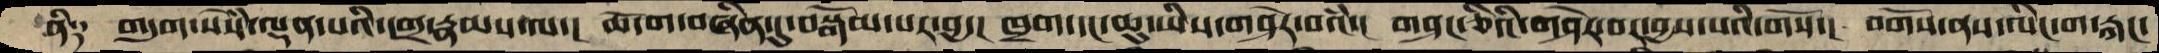ནི༑   གདུག་སེཾས་ལྡན་པའི་དགྲ་རྣམས་ལ་།  ཆོ་ག་བཞིན་དུ་བསྒོམ་པར་བྱ་།  ཁྲག་དང་ཆུ་ཡིས་གཤེར་བའཾ་།  གཤང་ཅིའི་གཤེར་བར་བྱས་པའི་གོས་།  བགོས་ནས་ལིང་ག་རྐང་
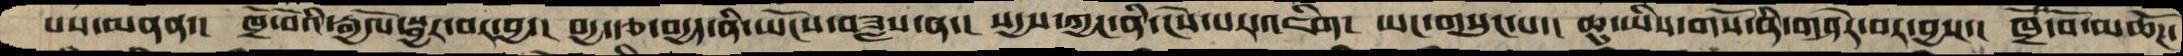པས་མནན་།  ཁྲོ་བོའི་རྒྱལོ་སྦྱར་བར་བྱ་།  བདྱ་རྩ་བདྱད་ནི་ཡོངས་བཟླས་ན་།  སདྱས་ཀྱང་ནི་ངེས་པར་འཇིག།  ཡང་གསུང་པ་།  ཆུ་ཡིས་གསོ་ནི་གཤེར་བར་བྱས་།  ཁྲོ་བོ་མཆོཌ་
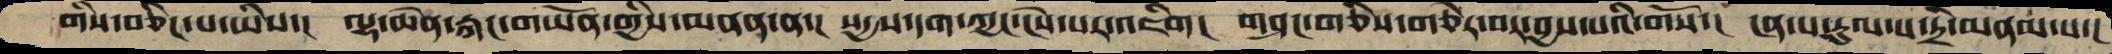གིས་བཅིང་པ་ཡིས་།  ལྷ་ཆེན་རྐང་གཡོན་གྱིས་མནན་ན་།  སདྱས་དག་ཀྱང་ངེས་པར་འཇིག།  གཤང་གཅིས་གཅེར་བར་བྱས་པའི་གོས་།  ངན་པ་རུལ་པ་དྲི་མནམ་པ་།
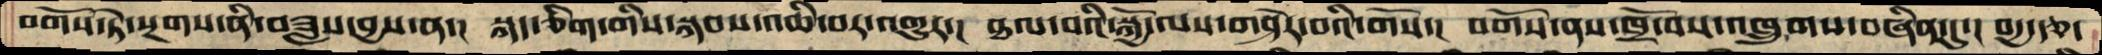བགོས་ཏེ་སྔགས་ནི་བཟླས་བྱས་ན་།  སྐད་ཅིག་གིས་སྐབས་འཆི་བར་འགྱུར་།  ཐལ་བའི་སྐྱོ་ལས་གཤེར་བའི་གོས་།  བགོས་ནས་ཁྲོ་བས་འཁྲུགས་བཞིན་དུ་།  བདྱ་རྩ་
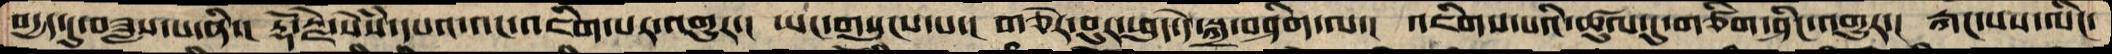བདྱད་དུ་བཟླས་པ་ནི་།  རྡོ་རྗེ་སེཾས་དཔའ་འང་འཇིག་པར་འགྱུར་།  ཡང་གསུངས་པ་།  གཅེར་བུར་ཕུད་དེ་སྐྲ་བཤིག་ལ་།  འཇིག་པའི་ཚུལ་དུ་གཙིག་ཤིང་འགྱུར་།  རྐང་པས་ལིང་
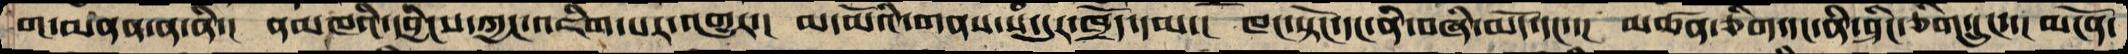ག་མནན་ན་ནི་།  ནམཁའི་དབྱིངས་ཀྱང་འཇིག་པར་འགྱུར་།  མ་མོའི་གནས་སཾ་དུར་ཁྲོད་དམ་།  ཁང་སྟོང་དང་ནི་བཞི་མདོ་དང་་།  མཚན་ཅིག་དང་ནི་ཤིང་ཅིག་དྲུང་་།  མངོན་
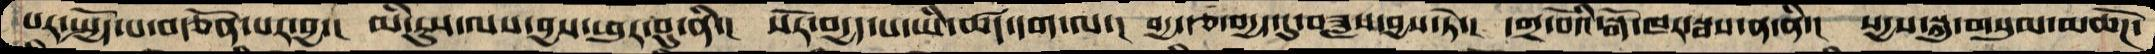པར་སྤྱོད་པ་བརྩོན་པར་བྱ་།  མི་རུས་ལས་བྱས་ཕུར་བུ་ནི་།  སོར་བདྱད་པ་ནི་ཚད་དག་ལ་།  བདྱ་རྩ་བདྱད་དུ་བཟླས་བྱས་ཏེ་།  དགྲ་བོའི་སྒོ་ཁར་སྦས་ན་ནི་།  སདྱས་སྐུ་གསུམ་མཆོཌ་
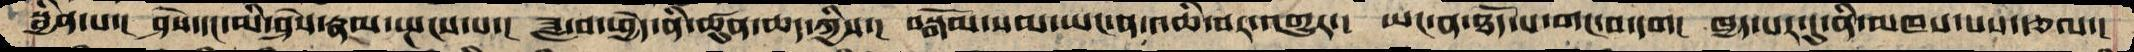སྦྱིན་པ་།  ཤེས་དང་མི་ཤེས་རྣམ་སྤངས་པ་།  ཟླ་བ་ཕྱེད་ནི་ཚུན་ཆད་ཀྱིས་།  བསྒོམ་སམ་ཡང་ན་འཆི་བར་འགྱུར་།  ཡང་ན་ཐོད་པ་གང་བ་དག།   ཁྱད་པར་དུ་ནི་མཁས་པས་རྩལ་།
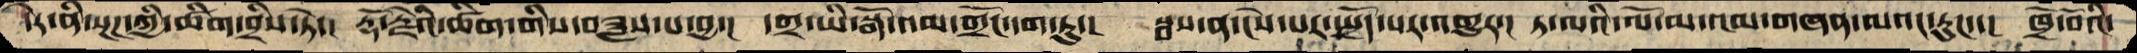དེར་ནི་སྔཌ་ཀྱི་ཚིག་བྲིས་ཏེ་།  རྡོ་རྗེའི་ཚིག་གིས་བཟླས་པ་བྱ་།  དགྲ་ཡི་སྒོ་འམ་གྲོང་དག་ཏུ་།  སྦས་ན་ངེས་པར་སྤྲོད་པར་འགྱུར་།  ཏ་ལའི་ལོ་མ་འམ་གཞན་ལའང་རུང་་།  ཁྲོ་བོའི་
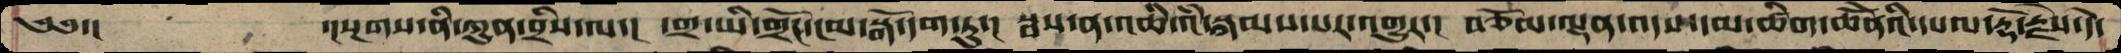༄༅་།   ་།སྔགས་ནི་ཀུན་བྲིས་ལ་།  དགྲ་ཡི་གྲོང་ངམ་སྒོ་དག་ཏུ་།  སྦས་ན་འཆི་འཾ་སྐམས་པར་འགྱུར་།  བཅོམ་ལྡན་འདས་དམ་ཚིག་ཆེནོའི་དཔལ་རྡོ་རྗེས་དེ་
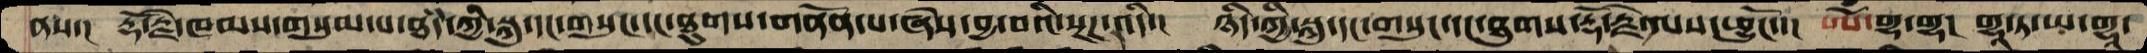ནས་།  རྡོ་རྗེ་ཁམས་གསུམ་པ་ཐཾད་ཀྱི་སྐུ་དང་གསུང་དང་ཐུགས་གནོན་པ་ཞེས་བྱ་བའི་སྔཌ་འདི་།  ཉིད་ཀྱི་སྐུ་དང་གསུང་དང་ཐུགས་རྡོ་རྗེ་ལས་ཕྱུངོ་་།  ཨོཾ་གྷ་གྷ།  གྷཱ་ཏ་ཡ་གྷཱ་
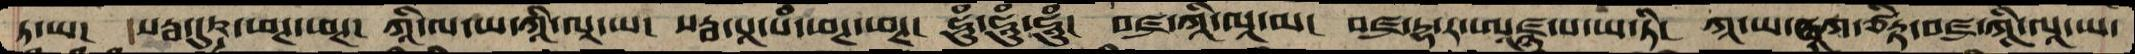ཏ་ཡ།  སརྦ་དུཥྚ་ཕཊ་ཕཊ།  ཀཱི་ལ་ཡ་ཀཱི་ལཱ་ཡ།  སརྦ་པཱ་པཾ་ཕཊ་ཕཊ།  ཧཱུཾ་ཧཱུཾ་ཧཱུཾ།  བཛྲ་ཀཱི་ལཱ་ཡ།  བཛྲ་དྷ་ར་ཨཱཛྙ་པ་ཡ་ཏི།  ཀཱ་ཡ་ཝཱཀ་ཙིཏྟ་བཛྲ་ཀཱི་ལཱ་ཡ་
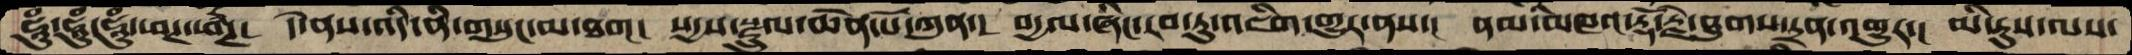ཧཱུཾ་ཧཱུཾ་ཧཱུཾ་ཕཊ་ཕཊ།  དེ་ནས་འདི་ནི་གསུང་མ་ཐག།  སདྱས་སྫྲུལ་ཆེན་པོ་ཀུན་།  བདྱལ་ཞིང་རབ་ཏུ་འཇིག་གྱུར་ནས་།  ནམ་མཁའ་རྡོ་རྗེ་ཐུགས་དྲན་འགྱུར་།  མི་རུས་ལས་
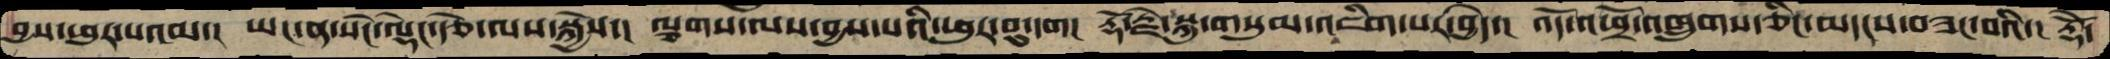བྱས་ཕུར་པའམ་།   ཡང་ན་སེང་ལྡེང་རྩེ་ལས་སྐྱེས་།   ལྕགས་ལས་བྱས་པའི་ཕུར་བུ་དག།  རྡོ་རྗེ་སྐུ་གསུམ་འཇིག་པར་བྱེད་།  འོད་འཕྲོ་འཁྲུགས་ཅིང་མདངས་བཟང་བའི་།  རྡོེ་
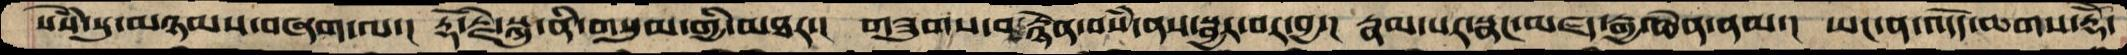སེཾས་སུ་མཉམས་བཞག་ལ་།  རྡོ་རྗེ་སྐུ་ནི་གསུམ་གྱི་མཐར་།  གཟུགས་བརྙེན་བསཾ་ནས་སྦྱར་བར་བྱ་།  རྣམ་པར་སྣང་མཛད་རྒྱ་ཆེན་ནམ་།  ཡང་ན་འདོད་ཆགས་རྡོེ་
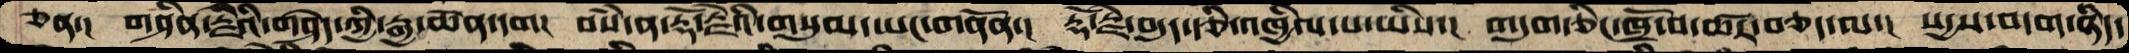ཅན་།  གཤིན་རྗེའི་གཤེད་ཀྱི་རྒྱ་ཆེན་དག།  བསཾ་ན་རྡོ་རྗེའི་གསུམ་ཡང་གནོན་།  རྡོ་རྗེ་བདུད་རྩི་འཁྱིལ་པ་ཡིས་།  གདུག་ཅིང་ཁྲོ་བ་ཚར་བཅད་ལ་།  སདྱས་བདག་ཉིད་
